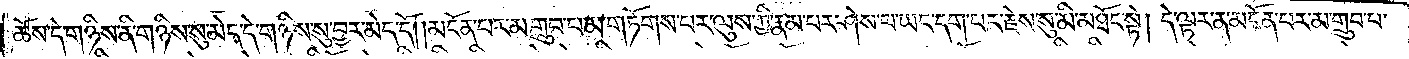ཆོས་དེ་གཉིས་ནི་གཉིས་སུ་མེད་དེ་གཉིས་སུ་བྱར་མེད་དོ། །མངོན་པར་མ་གྲུབ་པ་མ་གཏོགས་པར་ལུས་ཀྱི་རྣམ་པར་ཤེས་པ་ཡང་དག་པར་རྗེས་སུ་མི་མཐོང་སྟེ། དེ་ལྟར་ན་མངོན་པར་མ་གྲུབ་པ་
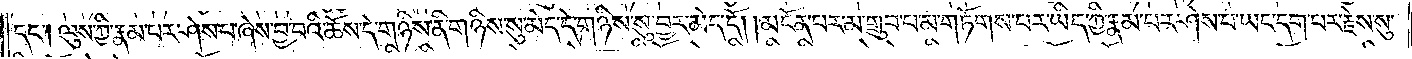དང༌། ལུས་ཀྱི་རྣམ་པར་ཤེས་པ་ཞེས་བྱ་བའི་ཆོས་དེ་གཉིས་ནི་གཉིས་སུ་མེད་དེ་གཉིས་སུ་བྱར་མེད་དོ། །མངོན་པར་མི་གྲུབ་པ་མ་གཏོགས་པར་ཡིད་ཀྱི་རྣམ་པར་ཤེས་པ་ཡང་དག་པར་རྗེས་སུ་
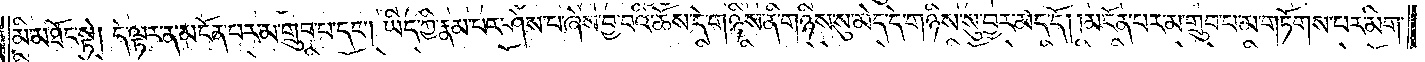མི་མཐོང་སྟེ། དེ་ལྟར་ན་མངོན་པར་མ་གྲུབ་པ་དང༌། ཡིད་ཀྱི་རྣམ་པར་ཤེས་པ་ཞེས་བྱ་བའི་ཆོས་དེ་གཉིས་ནི་གཉིས་སུ་མེད་དེ་གཉིས་སུ་བྱར་མེད་དོ། །མངོན་པར་མ་གྲུབ་པ་མ་གཏོགས་པར་མིག་
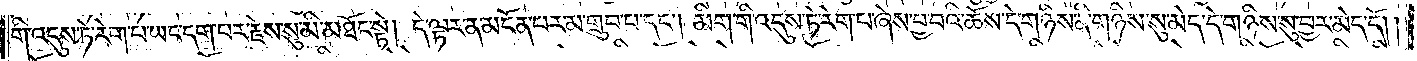གི་འདུས་ཏེ་རེག་པ་ཡང་དག་པར་རྗེས་སུ་མི་མཐོང་སྟེ། དེ་ལྟར་ན་མངོན་པར་མ་གྲུབ་པ་དང༌། མིག་གི་འདུས་ཏེ་རེག་པ་ཞེས་བྱ་བའི་ཆོས་དེ་གཉིས་ནི་གཉིས་སུ་མེད་དེ་གཉིས་སུ་བྱར་མེད་དོ། །
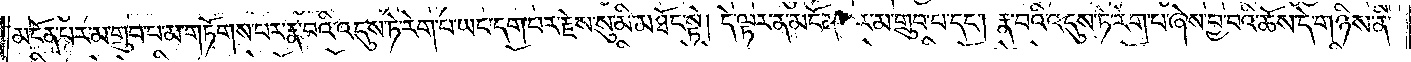མངོན་པར་མ་གྲུབ་པ་མ་གཏོགས་པར་རྣ་བའི་འདུས་ཏེ་རེག་པ་ཡང་དག་པར་རྗེས་སུ་མི་མཐོང་སྟེ། དེ་ལྟར་ན་མངོན་པར་མ་གྲུབ་པ་དང༌། རྣ་བའི་འདུས་ཏེ་རེག་པ་ཞེས་བྱ་བའི་ཆོས་དེ་གཉིས་ནི་
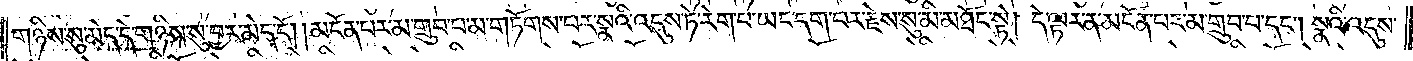གཉིས་སུ་མེད་དེ་གཉིས་སུ་བྱར་མེད་དོ། །མངོན་པར་མ་གྲུབ་པ་མ་གཏོགས་པར་སྣའི་འདུས་ཏེ་རེག་པ་ཡང་དག་པར་རྗེས་སུ་མི་མཐོང་སྟེ། དེ་ལྟར་ན་མངོན་པར་མ་གྲུབ་པ་དང༌། སྣའི་འདུས་
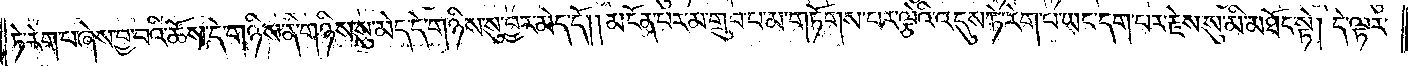ཏེ་རེག་པ་ཞེས་བྱ་བའི་ཆོས་དེ་གཉིས་ནི་གཉིས་སུ་མེད་དེ་གཉིས་སུ་བྱར་མེད་དོ། །མངོན་པར་མ་གྲུབ་པ་མ་གཏོགས་པར་ལྕེའི་འདུས་ཏེ་རེག་པ་ཡང་དག་པར་རྗེས་སུ་མི་མཐོང་སྟེ། དེ་ལྟར་
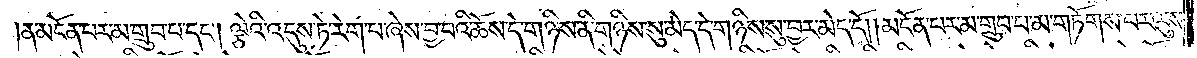ན་མངོན་པར་མ་གྲུབ་པ་དང༌། ལྕེའི་འདུས་ཏེ་རེག་པ་ཞེས་བྱ་བའི་ཆོས་དེ་གཉིས་ནི་གཉིས་སུ་མེད་དེ་གཉིས་སུ་བྱར་མེད་དོ། །མངོན་པར་མ་གྲུབ་པ་མ་གཏོགས་པར་ལུས་
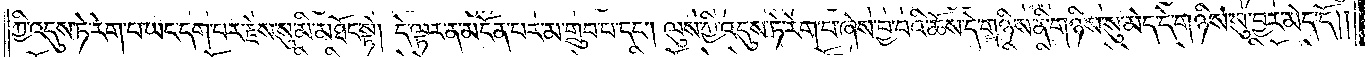ཀྱི་འདུས་ཏེ་རེག་པ་ཡང་དག་པར་རྗེས་སུ་མི་མཐོང་སྟེ། དེ་ལྟར་ན་མངོན་པར་མ་གྲུབ་པ་དང༌། ལུས་ཀྱི་འདུས་ཏེ་རེག་པ་ཞེས་བྱ་བའི་ཆོས་དེ་གཉིས་ནི་གཉིས་སུ་མེད་དེ་གཉིས་སུ་བྱར་མེད་དོ། །
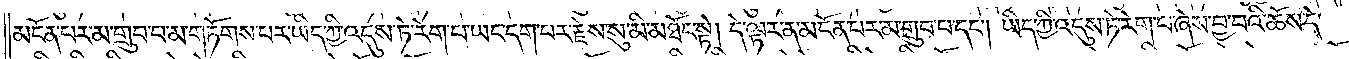མངོན་པར་མ་གྲུབ་པ་མ་གཏོགས་པར་ཡིད་ཀྱི་འདུས་ཏེ་རེག་པ་ཡང་དག་པར་རྗེས་སུ་མི་མཐོང་སྟེ། དེ་ལྟར་ན་མངོན་པར་མ་གྲུབ་པ་དང༌། ཡིད་ཀྱི་འདུས་ཏེ་རེག་པ་ཞེས་བྱ་བའི་ཆོས་དེ་
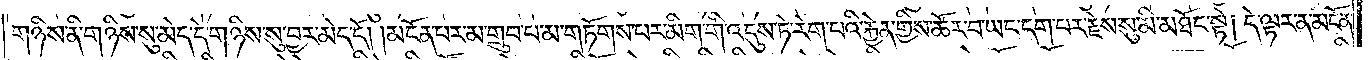གཉིས་ནི་གཉིས་སུ་མེད་དེ་གཉིས་སུ་བྱར་མེད་དོ། །མངོན་པར་མ་གྲུབ་པ་མ་གཏོགས་པར་མིག་གི་འདུས་ཏེ་རེག་པའི་རྐྱེན་གྱིས་ཚོར་བ་ཡང་དག་པར་རྗེས་སུ་མི་མཐོང་སྟེ། དེ་ལྟར་ན་མངོན་
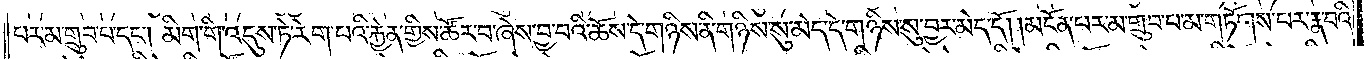པར་མ་གྲུབ་པ་དང༌། མིག་གི་འདུས་ཏེ་རེག་པའི་རྐྱེན་གྱིས་ཚོར་བ་ཞེས་བྱ་བའི་ཆོས་དེ་གཉིས་ནི་གཉིས་སུ་མེད་དེ་གཉིས་སུ་བྱར་མེད་དོ། །མངོན་པར་མ་གྲུབ་པ་མ་གཏོགས་པར་རྣ་བའི་
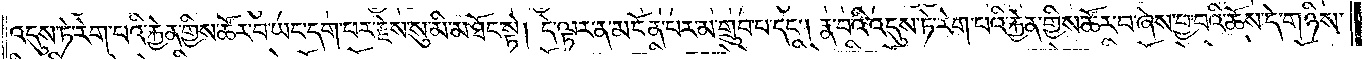འདུས་ཏེ་རེག་པའི་རྐྱེན་གྱིས་ཚོར་བ་ཡང་དག་པར་རྗེས་སུ་མི་མཐོང་སྟེ། དེ་ལྟར་ན་མངོན་པར་མ་གྲུབ་པ་དང༌། རྣ་བའི་འདུས་ཏེ་རེག་པའི་རྐྱེན་གྱིས་ཚོར་བ་ཞེས་བྱ་བའི་ཆོས་དེ་གཉིས་
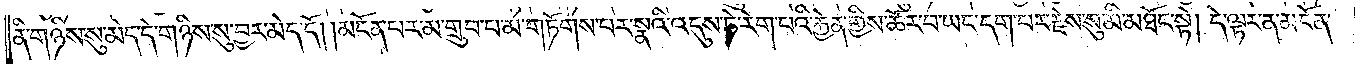ནི་གཉིས་སུ་མེད་དེ་གཉིས་སུ་བྱར་མེད་དོ། །མངོན་པར་མ་གྲུབ་པ་མ་གཏོགས་པར་སྣའི་འདུས་ཏེ་རེག་པའི་རྐྱེན་གྱིས་ཚོར་བ་ཡང་དག་པར་རྗེས་སུ་མི་མཐོང་སྟེ། དེ་ལྟར་ན་མངོན་
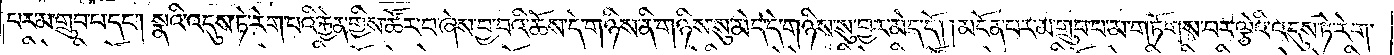པར་མ་གྲུབ་པ་དང༌། སྣའི་འདུས་ཏེ་རེག་པའི་རྐྱེན་གྱིས་ཚོར་བ་ཞེས་བྱ་བའི་ཆོས་དེ་གཉིས་ནི་གཉིས་སུ་མེད་དེ་གཉིས་སུ་བྱར་མེད་དོ། །མངོན་པར་མ་གྲུབ་བ་མ་གཏོགས་པར་ལྕེའི་འདུས་ཏེ་རེག་
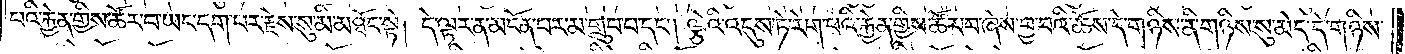པའི་རྐྱེན་གྱིས་ཚོར་བ་ཡང་དག་པར་རྗེས་སུ་མི་མཐོང་སྟེ། དེ་ལྟར་ན་མངོན་པར་མ་གྲུབ་པ་དང༌། ལྕེའི་འདུས་ཏེ་རེག་པའི་རྐྱེན་གྱིས་ཚོར་བ་ཞེས་བྱ་བའི་ཆོས་དེ་གཉིས་ནི་གཉིས་སུ་མེད་དེ་གཉིས་
